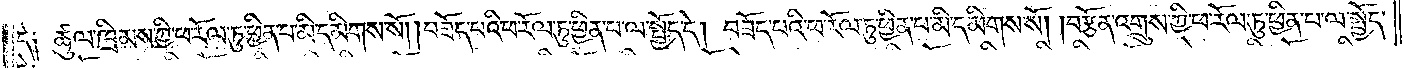དེ༑ ཚུལ་ཁྲིམས་ཀྱི་ཕ་རོལ་ཏུ་ཕྱིན་པ་མི་དམིགས་སོ། །བཟོད་པའི་ཕ་རོལ་ཏུ་ཕྱིན་པ་ལ་སྤྱོད་དེ། བཟོད་པའི་ཕ་རོལ་ཏུ་ཕྱིན་པ་མི་དམིགས་སོ། །བརྩོན་འགྲུས་ཀྱི་ཕ་རོལ་ཏུ་ཕྱིན་པ་ལ་སྤྱོད་
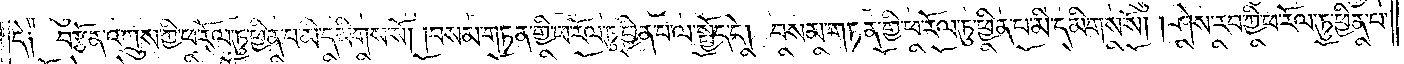དེ༑ བརྩོན་འགྲུས་ཀྱི་ཕ་རོལ་ཏུ་ཕྱིན་པ་མི་དམིགས་སོ། །བསམ་གཏན་གྱི་ཕ་རོལ་ཏུ་ཕྱིན་པ་ལ་སྤྱོད་དེ། བསམ་གཏན་གྱི་ཕ་རོལ་ཏུ་ཕྱིན་པ་མི་དམིགས་སོ། །ཤེས་རབ་ཀྱི་ཕ་རོལ་ཏུ་ཕྱིན་པ་
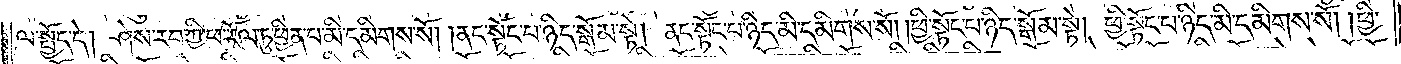ལ་སྤྱོད་དེ། ཤེས་རབ་ཀྱི་ཕ་རོལ་ཏུ་ཕྱིན་པ་མི་དམིགས་སོ། །ནང་སྟོང་པ་ཉིད་སྒོམ་སྟེ། ནང་སྟོང་པ་ཉིད་མི་དམིགས་སོ། །ཕྱི་སྟོང་པ་ཉིད་སྒོམ་སྟེ། ཕྱི་སྟོང་པ་ཉིད་མི་དམིགས་སོ། །ཕྱི་
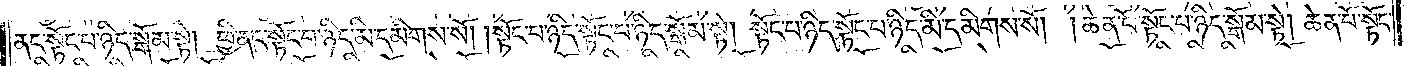ནང་སྟོང་པ་ཉིད་སྒོམ་སྟེ། ཕྱི་ནང་སྟོང་པ་ཉིད་མི་དམིགས་སོ། །སྟོང་པ་ཉིད་སྟོང་པ་ཉིད་སྒོམ་སྟེ། སྟོང་པ་ཉིད་སྟོང་པ་ཉིད་མི་དམིགས་སོ། །ཆེན་པོ་སྟོང་པ་ཉིད་སྒོམ་སྟེ། ཆེན་པོ་སྟོང་
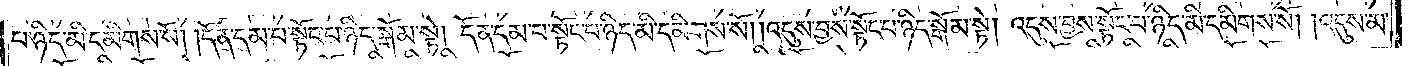པ་ཉིད་མི་དམིགས་སོ། །དོན་དམ་པ་སྟོང་པ་ཉིད་སྒོམ་སྟེ། དོན་དམ་པ་སྟོང་པ་ཉིད་མི་དམིགས་སོ། །འདུས་བྱས་སྟོང་པ་ཉིད་སྒོམ་སྟེ། འདུས་བྱས་སྟོང་པ་ཉིད་མི་དམིགས་སོ། །འདུས་མ་
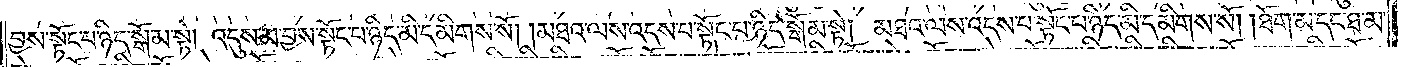བྱས་སྟོང་པ་ཉིད་སྒོམ་སྟེ། འདུས་མ་བྱས་སྟོང་པ་ཉིད་མི་དམིགས་སོ། །མཐའ་ལས་འདས་པ་སྟོང་པ་ཉིད་སྒོམ་སྟེ། མཐའ་ལས་འདས་པ་སྟོང་པ་ཉིད་མི་དམིགས་སོ། །ཐོག་མ་དང་ཐ་མ་
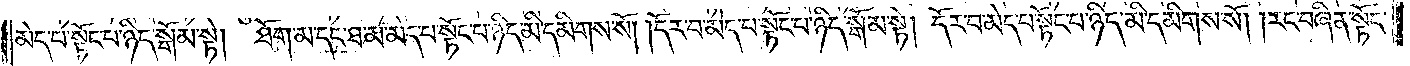མེད་པ་སྟོང་པ་ཉིད་སྒོམ་སྟེ། ཐོག་མ་དང་ཐ་མ་མེད་པ་སྟོང་པ་ཉིད་མི་དམིགས་སོ། །དོར་བ་མེད་པ་སྟོང་པ་ཉིད་སྒོམ་སྟེ། དོར་བ་མེད་པ་སྟོང་པ་ཉིད་མི་དམིགས་སོ། །རང་བཞིན་སྟོང་
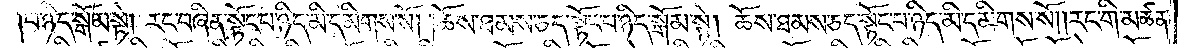པ་ཉིད་སྒོམ་སྟེ། རང་བཞིན་སྟོང་པ་ཉིད་མི་དམིགས་སོ། །ཆོས་ཐམས་ཅད་སྟོང་པ་ཉིད་སྒོམ་སྟེ། ཆོས་ཐམས་ཅད་སྟོང་པ་ཉིད་མི་དམིགས་སོ། །རང་གི་མཚན་
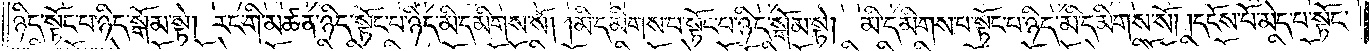ཉིད་སྟོང་པ་ཉིད་སྒོམ་སྟེ། རང་གི་མཚན་ཉིད་སྟོང་པ་ཉིད་མི་དམིགས་སོ། །མི་དམིགས་པ་སྟོང་པ་ཉིད་སྒོམ་སྟེ། མི་དམིགས་པ་སྟོང་པ་ཉིད་མི་དམིགས་སོ། །དངོས་པོ་མེད་པ་སྟོང་
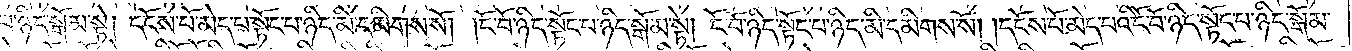པ་ཉིད་སྒོམ་སྟེ། དངོས་པོ་མེད་པ་སྟོང་པ་ཉིད་མི་དམིགས་སོ། །ངོ་བོ་ཉིད་སྟོང་པ་ཉིད་སྒོམ་སྟེ། ངོ་བོ་ཉིད་སྟོང་པ་ཉིད་མི་དམིགས་སོ། །དངོས་པོ་མེད་པའི་ངོ་བོ་ཉིད་སྟོང་པ་ཉིད་སྒོམ་
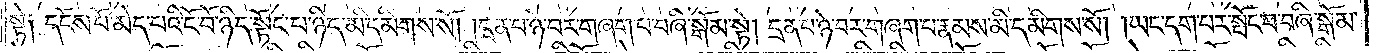སྟེ༑ དངོས་པོ་མེད་པའི་ངོ་བོ་ཉིད་སྟོང་པ་ཉིད་མི་དམིགས་སོ། །དྲན་པ་ཉེ་བར་གཞག་པ་བཞི་སྒོམ་སྟེ། དྲན་པ་ཉེ་བར་གཞག་པ་རྣམས་མི་དམིགས་སོ། །ཡང་དག་པར་སྤོང་བ་བཞི་སྒོམ་
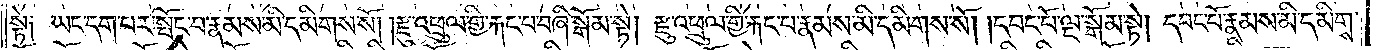སྟེ༑ ཡང་དག་པར་སྤོང་བ་རྣམས་མི་དམིགས་སོ། །རྫུ་འཕྲུལ་གྱི་རྐང་པ་བཞི་སྒོམ་སྟེ། རྫུ་འཕྲུལ་གྱི་རྐང་པ་རྣམས་མི་དམིགས་སོ། །དབང་པོ་ལྔ་སྒོམ་སྟེ། དབང་པོ་རྣམས་མི་དམིགས་
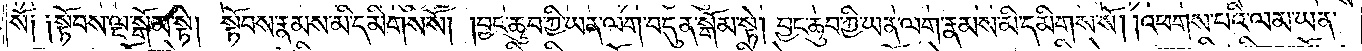སོ༑ ༑སྟོབས་ལྔ་སྒོམ་སྟེ། སྟོབས་རྣམས་མི་དམིགས་སོ། །བྱང་ཆུབ་ཀྱི་ཡན་ལག་བདུན་སྒོམ་སྟེ། བྱང་ཆུབ་ཀྱི་ཡན་ལག་རྣམས་མི་དམིགས་སོ། །འཕགས་པའི་ལམ་ཡན་
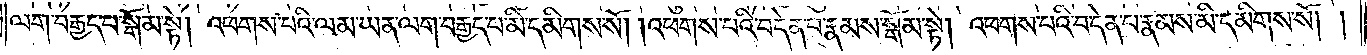ལག་བརྒྱད་པ་སྒོམ་སྟེ། འཕགས་པའི་ལམ་ཡན་ལག་བརྒྱད་པ་མི་དམིགས་སོ། །འཕགས་པའི་བདེན་པ་རྣམས་སྒོམ་སྟེ། འཕགས་པའི་བདེན་པ་རྣམས་མི་དམིགས་སོ། །
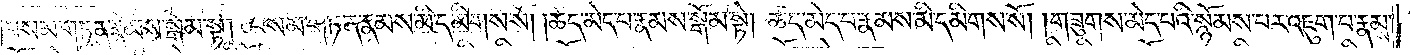བསམ་གཏན་རྣམས་སྒོམ་སྟེ། བསམ་གཏན་རྣམས་མི་དམིགས་སོ། །ཚད་མེད་པ་རྣམས་སྒོམ་སྟེ། ཚད་མེད་པ་རྣམས་མི་དམིགས་སོ། །གཟུགས་མེད་པའི་སྙོམས་པར་འཇུག་པ་རྣམས་
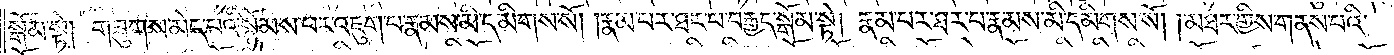སྒོམ་སྟེ། གཟུགས་མེད་པའི་སྙོམས་པར་འཇུག་པ་རྣམས་མི་དམིགས་སོ། །རྣམ་པར་ཐར་པ་བརྒྱད་སྒོམ་སྟེ། རྣམ་པར་ཐར་པ་རྣམས་མི་དམིགས་སོ། །མཐར་གྱིས་གནས་པའི་
